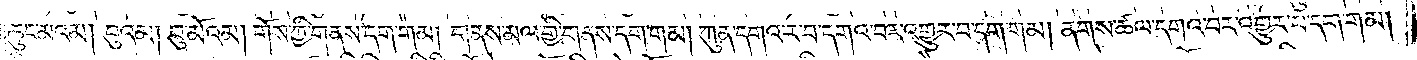ཆུང་མའམ། བུའམ། བུ་མོའམ། གོས་ཀྱི་གནས་དག་གམ། གནས་མལ་གྱི་གནས་དག་གམ། ཀུན་དགའ་ར་བ་དགའ་བར་འགྱུར་བ་དག་གམ། ནགས་ཚལ་དགའ་བར་འགྱུར་བ་དག་གམ།
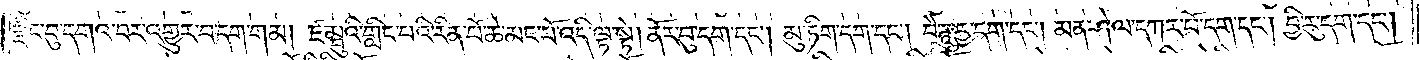རྫིང་བུ་དགའ་བར་འགྱུར་པ་དག་གམ། ཛམྦུའི་གླིང་པའི་རིན་པོ་ཆེ་མང་པོ་འདི་ལྟ་སྟེ། ནོར་བུ་དག་དང༌། མུ་ཏིག་དག་དང༌། བཻ་ཌཱུརྱ་དག་དང༌། མན་ཤེལ་དཀར་པོ་དག་དང༌། བྱི་རུ་དག་དང༌།
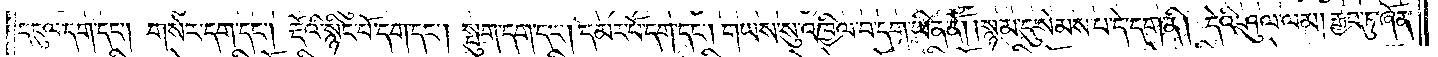དངུལ་དག་དང༌། གསེར་དག་དང༌། རྡོའི་སྙིང་པོ་དག་དང༌། སྤུག་དག་དང༌། དམར་པོ་དག་དང༌། གཡས་སུ་འཁྱིལ་བ་དག་ཡིན་ནོ། །སྙམ་དུ་སེམས་པ་དེ་དག་ནི། དེའི་ཤུལ་ལམ། རྒྱབ་ཏུ་ཞོན་
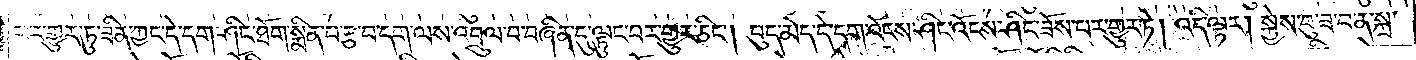པར་གྱུར་ཏུ་ཟིན་ཀྱང་དེ་དག་ཤིང་ཐོག་སྨིན་པ་རྩ་བ་དག་ལས་འབྲུལ་བ་བཞིན་དུ་ལྟུང་བར་གྱུར་ཅིང༌། བུད་མེད་དེ་དག་འོངས་ཤིང་འོངས་ཤིང་ཟོས་པར་གྱུར་ཏེ། འདི་ལྟར། སྐྱེས་བུ་ཟ་བ་ན་སྐྲ་
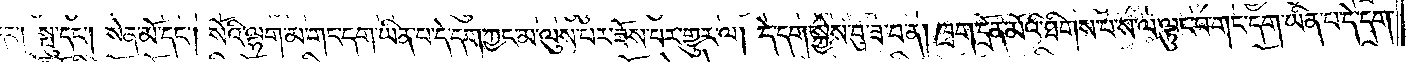དང༌། སྤུ་དང༌། སེན་མོ་དང༌། སོའི་ལྷག་མ་གང་དག་ཡིན་པ་དེ་དག་ཀྱང་མ་ལུས་པར་ཟོས་པར་གྱུར་ལ། དེ་དག་སྐྱེས་བུ་ཟ་བ་ན། ཁྲག་དྲོན་མོའི་ཐིགས་པ་ས་ལ་ལྟུང་བ་གང་དག་ཡིན་པ་དེ་དག་
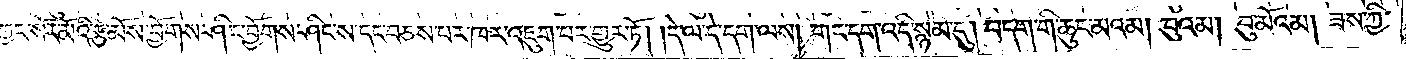ཀྱང་སོར་མོའི་རྩེ་མོས་བྱོགས་ཤིང་བྱོགས་ཤིང་ས་དང་བཅས་པར་ཁར་འཇུག་པར་གྱུར་ཏོ། །དེ་ལ་དེ་དག་ལས། གང་དག་འདི་སྙམ་དུ། བདག་གི་ཆུང་མའམ། བུའམ། བུ་མོའམ། ཟས་ཀྱི་
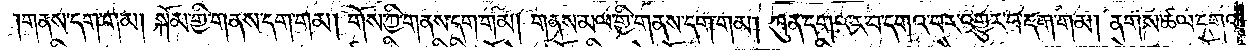གནས་དག་གམ། སྐོམ་གྱི་གནས་དག་གམ། གོས་ཀྱི་གནས་དག་གམ། གནས་མལ་གྱི་གནས་དག་གམ། ཀུན་དགའ་ར་བ་དགའ་བར་འགྱུར་བ་དག་གམ། ནགས་ཚལ་དགའ་
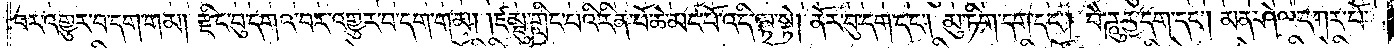བར་འགྱུར་བ་དག་གམ། རྫིང་བུ་དགའ་བར་འགྱུར་པ་དག་གམ། །ཛམྦུ་གླིང་པའི་རིན་པོ་ཆེ་མང་པོ་འདི་ལྟ་སྟེ། ནོར་བུ་དག་དང༌། མུ་ཏིག་དག་དང༌། བཻ་ཌཱུརྱ་དག་དང༌། མན་ཤེལ་དཀར་པོ་
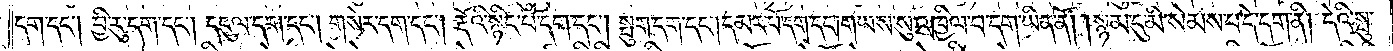དག་དང༌། བྱི་རུ་དག་དང༌། དངུལ་དག་དང༌། གསེར་དག་དང༌། རྡོའི་སྙིང་པོ་དག་དང༌། སྤུག་དག་དང༌། དམར་པོ་དག་དང༌། གཡས་སུ་འཁྱིལ་བ་དག་ཡིན་ནོ། །སྙམ་དུ་མི་སེམས་པ་དེ་དག་ནི། དེའི་སྤུ་
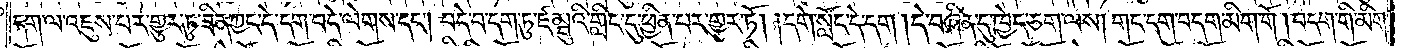དག་ལ་འཇུས་པར་གྱུར་ཏུ་ཟིན་ཀྱང་དེ་དག་བདེ་ལེགས་དང༌། བདེ་བ་དག་ཏུ་ཛམྦུའི་གླིང་དུ་ཕྱིན་པར་གྱུར་ཏོ། །དགེ་སློང་དེ་དག །དེ་བཞིན་དུ་ཁྱེད་ཅག་ལས། གང་དག་བདག་མིག་གོ །བདག་གི་མིག་
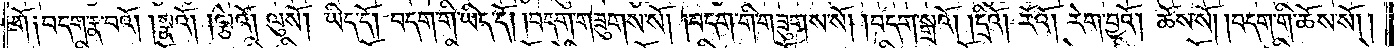གོ་༑བདག་རྣ་བའོ། །སྣའོ། །ལྕེའོ། ལུསོ། ཡིད་དོ། བདག་གི་ཡིད་དོ། །བདག་གཟུགས་སོ། །བདག་གི་གཟུགས་སོ། །བདག་སྒྲའོ། །དྲིའོ། རོའོ། རེག་བྱའོ། ཆོས་སོ། །བདག་གིས་ཆོས་སོ། །
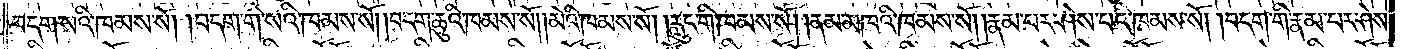བདག་སའི་ཁམས་སོ། །བདག་གི་སའི་ཁམས་སོ། །བདག་ཆུའི་ཁམས་སོ། །མེའི་ཁམས་སོ། །རླུང་གི་ཁམས་སོ། །ནམ་མཁའི་ཁམས་སོ། །རྣམ་པར་ཤེས་པའི་ཁམས་སོ། །བདག་གི་རྣམ་པར་ཤེས་
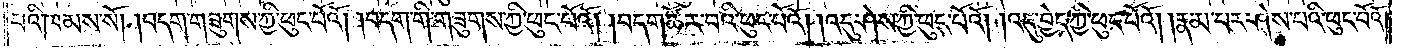པའི་ཁམས་སོ། །བདག་གཟུགས་ཀྱི་ཕུང་པོའོ། །བདག་གི་གཟུགས་ཀྱི་ཕུང་པོའོ། །བདག་ཚོར་བའི་ཕུང་པོའོ། །འདུ་ཤེས་ཀྱི་ཕུང་པོའོ། །འདུ་བྱེད་ཀྱི་ཕུང་པོའོ། །རྣམ་པར་ཤེས་པའི་ཕུང་པོའོ་
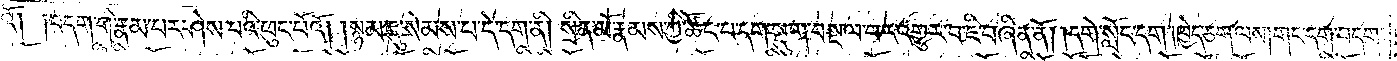པོའོ། །བདག་གི་རྣམ་པར་ཤེས་པའི་ཕུང་པོའོ། །སྙམ་དུ་སེམས་པ་དེ་དག་ནི། སྲིན་མོ་རྣམས་ཀྱི་ཚོང་པ་དག་སྡུག་བསྔལ་བར་འགྱུར་བ་ཇི་བཞིན་ནོ། །དགེ་སློང་དག །ཁྱེད་ཅག་ལས། གང་དག་བདག་
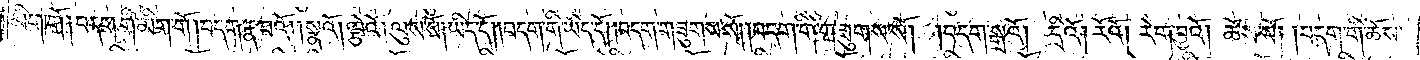མིག་གོ །བདག་གི་མིག་གོ །བདག་རྣ་བའོ། །སྣའོ། །ལྕེའོ། ལུས་སོ། ཡིད་དོ། །བདག་གི་ཡིད་དོ། །བདག་གཟུགས་སོ། །བདག་གི་གཟུགས་སོ། །བདག་སྒྲའོ། དྲིའོ། །རོའོ། རེག་བྱའོ། ཆོས་སོ། །བདག་གི་ཆོས་
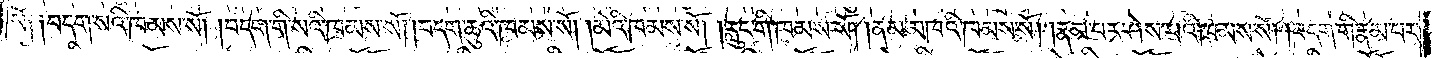སོ༑ ༑བདག་སའི་ཁམས་སོ། །བདག་གི་སའི་ཁམས་སོ། །བདག་ཆུའི་ཁམས་སོ། །མེའི་ཁམས་སོ། །རླུང་གི་ཁམས་སོ། །ནམ་མཁའི་ཁམས་སོ། །རྣམ་པར་ཤེས་པའི་ཁམས་སོ། །བདག་གི་རྣམ་པར་
